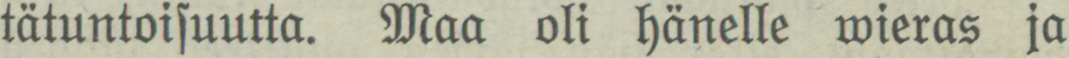tätuntoisuutta. Maa oli hänelle wieras ja
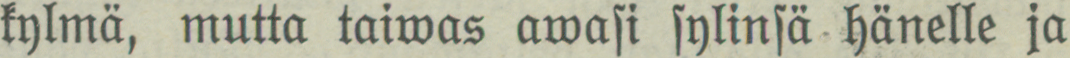kylmä, mutta taiwas awasi sylinsä hänelle ja
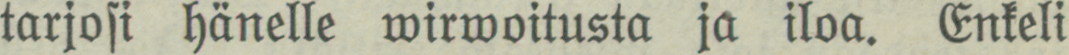tarjosi hänelle wirwoitusta ja iloa. Enkeli
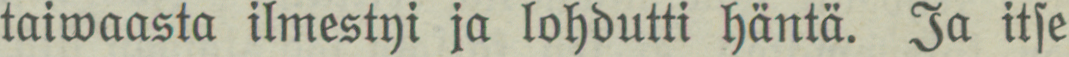taiwaasta ilmestyi ja lohdutti häntä. Ja itse
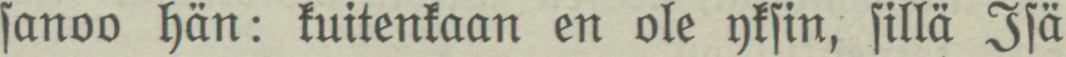sanoo hän: kuitenkaan en ole yksin, sillä Isä
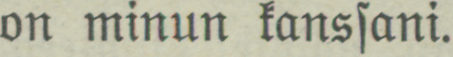on minun kanssani.
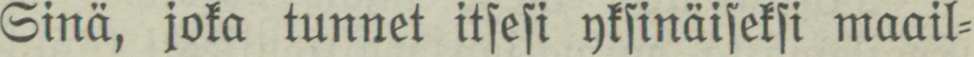Sinä, joka tunnet itsesi yksinäiseksi maail-
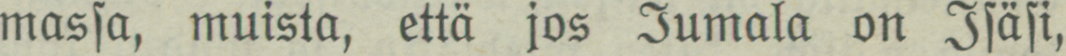massa, muista, että jos Jumala on Isäsi,
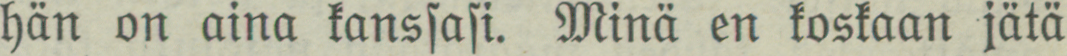hän on aina kanssasi. Minä en koskaan jätä
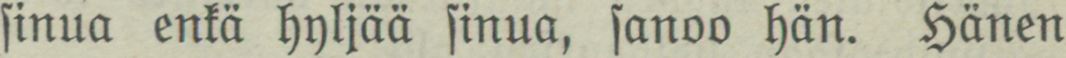sinua enkä hyljää sinua, sanoo hän. Hänen
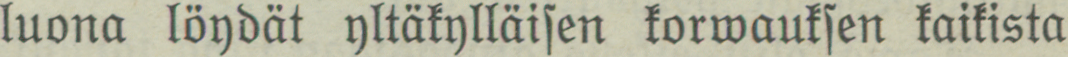luona löydät yltäkylläisen korwauksen kaikista
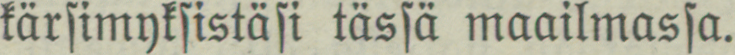kärsimyksistäsi tässä maailmassa.
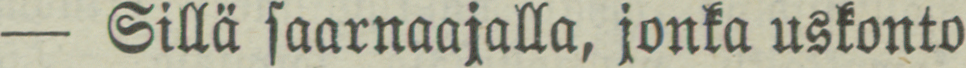— Sillä saarnaajalla, jonka uskonto
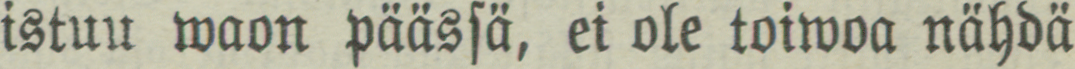istuu waon päässä, ei ole toiwoa nähdä
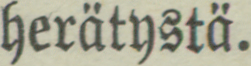herätystä.
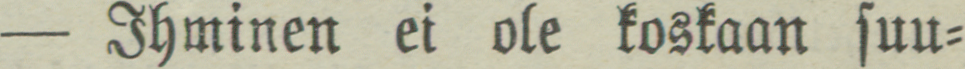— Ihminen ei ole koskaan suu-
